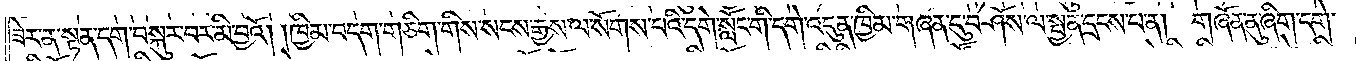ཟེར་ན་སྟན་དག་བསྐུར་བར་མི་བྱའོ། །ཁྱིམ་བདག་གཅིག་གིས་སངས་རྒྱས་ལ་སོགས་པའི་དགེ་སློང་གི་དགེ་འདུན་ཁྱིམ་གཞན་དུ་བཤོས་ལ་སྤྱན་དྲངས་པ་ན། གཞོན་ནུ་ཞིག་དགེ་
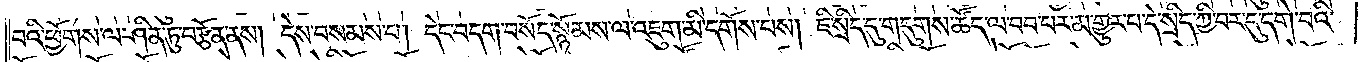བའི་ཕྱོགས་ལ་ཤིན་ཏུ་བརྩོན་ནས། དེས་བསམས་པ། དེང་བདག་བསོད་སྙོམས་ལ་འཇུག་མི་དགོས་པས། ཇི་སྲིད་དུ་གདུགས་ཚོད་ལ་བབ་པར་མ་གྱུར་བ་དེ་སྲིད་ཀྱི་བར་དུ་དགེ་བའི་
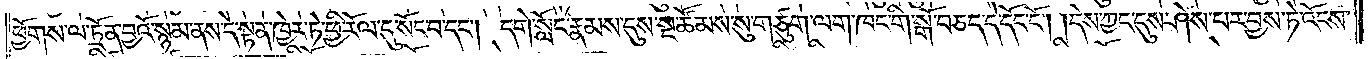ཕྱོགས་ལ་ཏྲོན་བྱའོ་སྙམ་ནས་དེ་སྟན་ཁྱེར་ཏེ་ཕྱི་རོལ་དུ་སོང་བ་དང༌། དགེ་སློང་རྣམས་དུས་སྔ་ཚོམས་སུ་གཙུག་ལག་ཁང་གི་སྒོ་བཅད་དེ་དོང་ངོ༌། །དེས་ཀྱང་དུས་ཤེས་པར་བྱས་ཏེ་འོངས་
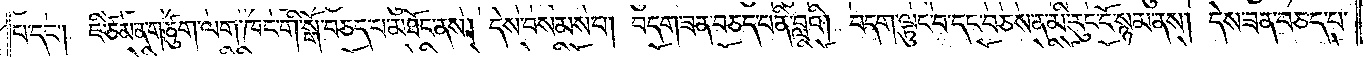པ་དང༌། ཇི་ཙམ་ན་གཙུག་ལག་ཁང་གི་སྒོ་བཅད་པ་མཐོང་ནས། དེས་བསམས་པ། བདག་ཟན་བཅད་པ་ནི་བླའི། བདག་ལྟུང་བ་དང་བཅས་ན་མི་རུང་ངོ་སྙམ་ནས། དེས་ཟན་བཅད་པ་
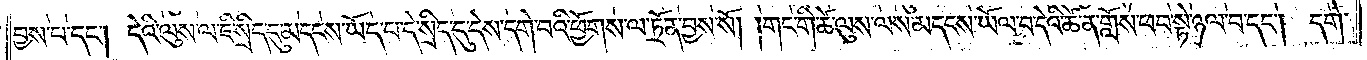བྱས་པ་དང༌། དེའི་ལུས་ལ་ཇི་སྲིད་དུ་མདངས་ཡོད་པ་དེ་སྲིད་དུ་དེས་དགེ་བའི་ཕྱོགས་ལ་ཏྲོན་བྱས་སོ། །གང་གི་ཚེ་ལུས་ལས་མདངས་ཡོལ་བ་དེའི་ཚེ་ན་གློས་ཕབ་སྟེ་ཉལ་བ་དང༌། དགེ་
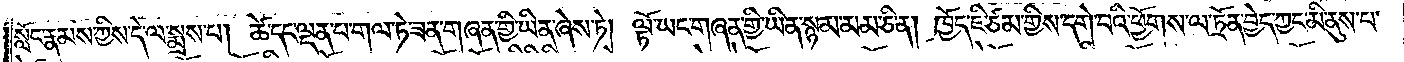སློང་རྣམས་ཀྱིས་དེ་ལ་སྨྲས་པ། ཚེ་དང་ལྡན་པ་གལ་ཏེ་ཟན་གཞན་གྱི་ཡིན་ཞེས་ཏེ། ལྟོ་ཡང་གཞན་གྱི་ཡིན་སྙམ་མམ་ཅི་ན། ཁྱོད་ཇི་ཙམ་གྱིས་དགེ་བའི་ཕྱོགས་ལ་ཏྲོན་བྱེད་ཀྱང་མི་ནུས་པ་
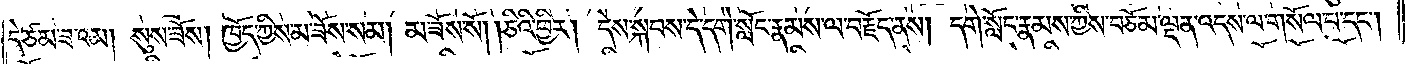དེ་ཙམ་ཟ་འམ། སུས་ཟོས། ཁྱོད་ཀྱིས་མ་ཟོས་སམ། མ་ཟོས་སོ། །ཅིའི་ཕྱིར། དེས་སྐབས་དེ་དགེ་སློང་རྣམས་ལ་བརྗོད་ནས། དགེ་སློང་རྣམས་ཀྱིས་བཅོམ་ལྡན་འདས་ལ་གསོལ་བ་དང༌།
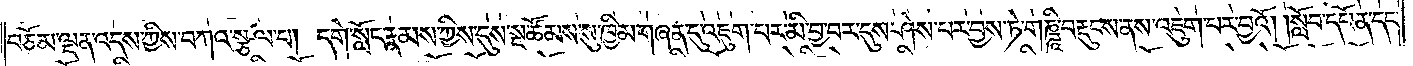བཅོམ་ལྡན་འདས་ཀྱིས་བཀའ་སྩལ་པ། དགེ་སློང་རྣམས་ཀྱིས་དུས་སྔ་ཚོགས་སུ་ཁྱིམ་གཞན་དུ་འཇུག་པར་མི་བྱ་བར་དུས་ཤེས་པར་བྱས་ཏེ་གཎྜཱི་བརྡུངས་ནས་འཇུག་པར་བྱའོ། །སློབ་དཔོན་དང་
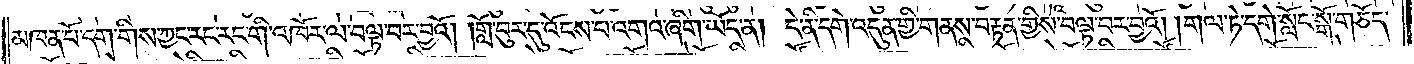མཁན་པོ་དག་གིས་ཀྱང་རང་རང་གི་འཁོར་ལ་བལྟ་བར་བྱའོ། །གློ་བུར་དུ་འོངས་པ་འགའ་ཞིག་ཡོད་ན། དེ་ནི་དགེ་འདུན་གྱི་གནས་བརྟན་གྱིས་བལྟ་བར་བྱའོ། །གལ་ཏེ་དགེ་སློང་སྒོ་གཅོད་
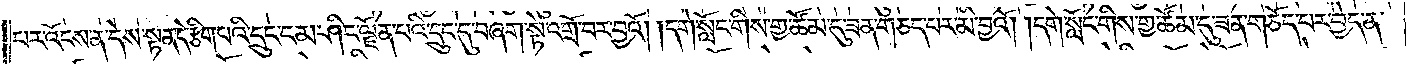པར་འོངས་ན་དེས་སྟན་དེ་རྩིག་པའི་དྲུང་ངམ་ཤིང་ལྗོན་པའི་དྲུང་དུ་བཞག་སྟེ་འགྲོ་བར་བྱའོ། །དགེ་སློང་གིས་གྱ་ཚོམ་དུ་ཟན་གཅད་པར་མི་བྱའོ། །དགེ་སློང་གིས་གྱ་ཚོམ་དུ་ཟན་གཅོད་པར་བྱེད་ན་
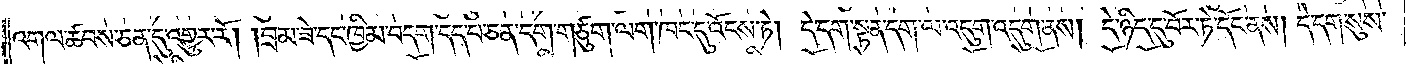འགལ་ཚབས་ཅན་དུ་འགྱུར་རོ། །བྲམ་ཟེ་དང་ཁྱིམ་བདག་དད་པ་ཅན་དག་གཙུག་ལག་ཁང་དུ་འོངས་ཏེ། དེ་དག་སྟན་དག་ལ་འདུག་འདུག་ནས། དེ་ཉིད་དུ་བོར་ཏེ་དོང་ནས། དེ་དག་སུས་
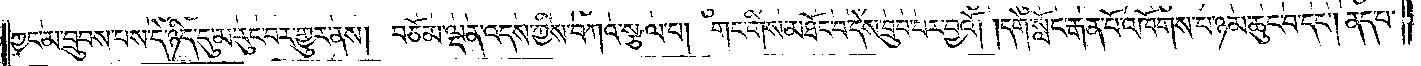ཀྱང་མ་བྲུབས་པས་དེ་ཉིད་དུ་མ་རུང་བར་གྱུར་ནས། བཅོམ་ལྡན་འདས་ཀྱིས་བཀའ་སྩལ་པ། གང་གིས་མཐོང་བ་དེས་བྲུབ་པར་བྱའོ། །དགེ་སློང་རྒན་པོ་འཁོགས་པ་ཉམ་ཆུང་བ་དང༌། ནད་པ་
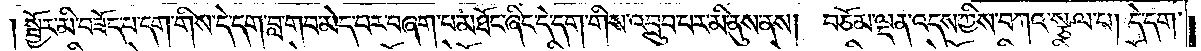སྦྱོར་མི་བཟོད་པ་དག་གིས་དེ་དག་བླ་གབ་མེད་པར་བཞག་པ་མཐོང་ཞིང་དེ་དག་གིས་འབྲུབ་པར་མི་ནུས་ནས། བཅོམ་ལྡན་འདས་ཀྱིས་བཀའ་སྩལ་པ། དེ་དག་
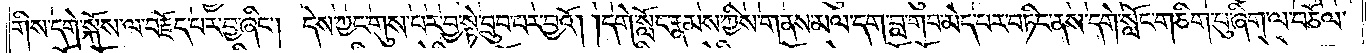གིས་དགེ་སྐོས་ལ་བརྗོད་པར་བྱ་ཞིང༌། དེས་ཀྱང་གུས་པར་བྱ་སྟེ་བྲུབ་པར་བྱའོ། །དགེ་སློང་རྣམས་ཀྱིས་གནས་མལ་དག་བླ་གབ་མེད་པར་བཏིང་ནས་དགེ་སློང་གཅིག་པུ་ཞིག་ལ་བཅོལ་
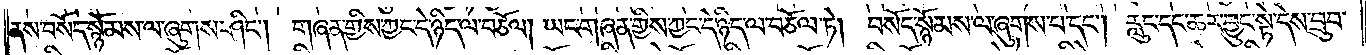ནས་བསོད་སྙོམས་ལ་ཞུགས་ཤིང༌། གཞན་གྱིས་ཀྱང་དེ་ཉིད་ལ་བཅོལ། ཡང་གཞན་གྱིས་ཀྱང་དེ་ཉིད་ལ་བཅོལ་ཏེ། བསོད་སྙོམས་ལ་ཞུགས་པ་དང༌། རླུང་དང་ཆར་བྱུང་སྟེ་དེས་བྲུབ་
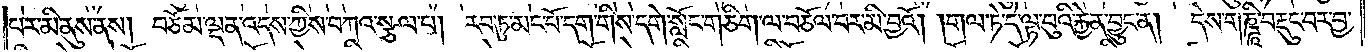པར་མི་ནུས་ནས། བཅོམ་ལྡན་འདས་ཀྱིས་བཀའ་སྩལ་པ། རབ་ཏུ་མང་པོ་དག་གིས་དགེ་སློང་གཅིག་ལ་བཅོལ་བར་མི་བྱའོ། །གལ་ཏེ་དེ་ལྟ་བུའི་རྐྱེན་བྱུང་ན། དེས་གཎྜཱི་བརྡུང་བར་བྱ་
